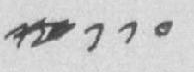༡༢༠ ༡༡༠
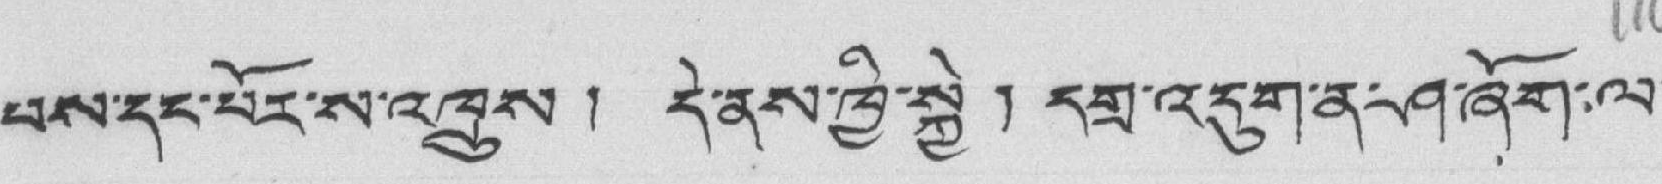པས་དང་པོར་ས་འཁྲུས ། དེ་ནས་ཁྱི་སྐྱེ ། དགྲ་འདུག་ན་ཤ་ཞོག་ལ་
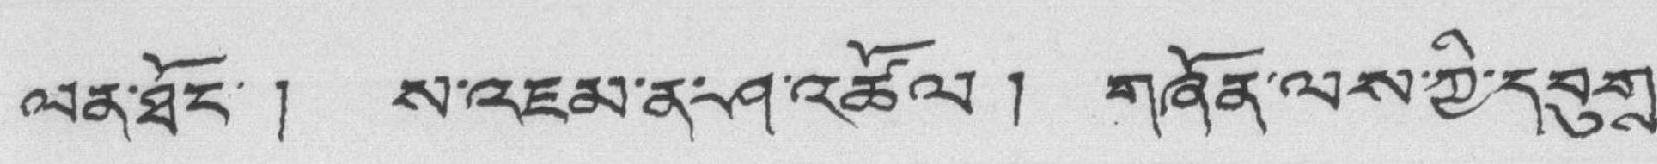ལན་ཐོང་ ། ས་འཇམ་ན་ཤ་འཚོལ ། གཞོན་ལས་ཀྱི་དབུགས་
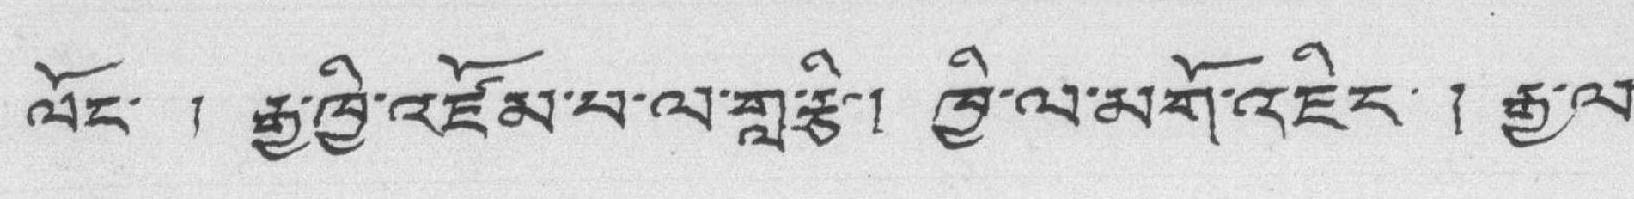ལོང་ ། རྒྱ་ཁྱི་འཛོམ་པ་ལ་གླ་རྩི། ཁྱི་ལ་མགོ་འཇིང་། རྒྱ་ལ་
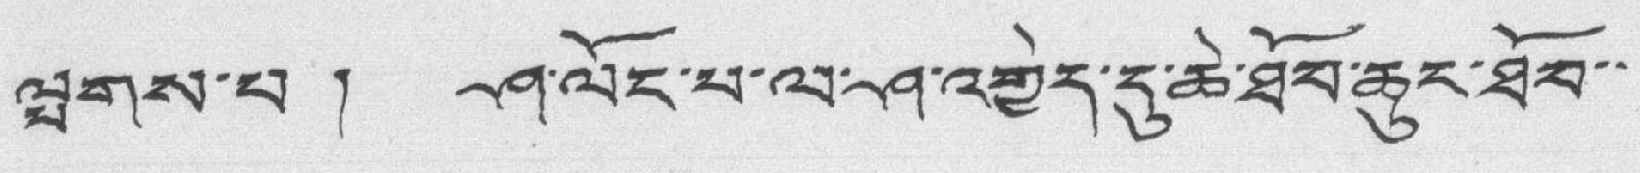ལྤགས་པ ། ཤ་ལོང་པ་ལ་ཤ་འགྱེད་དུ་ཆེ་ཐོབ་ཆུང་ཐོབ་་
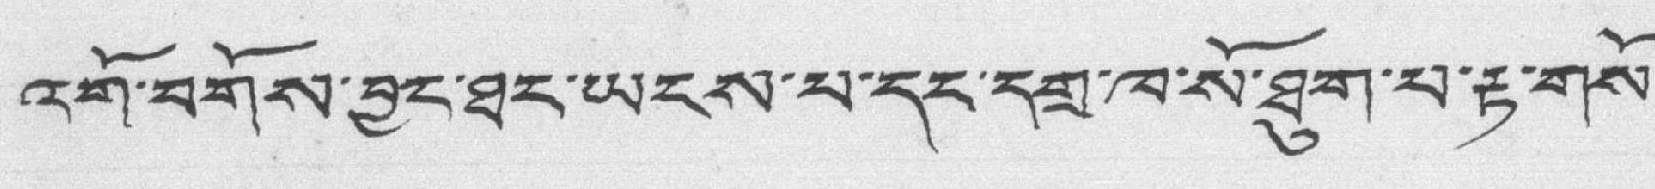འགོ་བགོས་བྱང་ཐང་ཡངས་པ་དང་དགྲ་ཁ་སོ་ཐུག་པ་རྟ་གསོ་
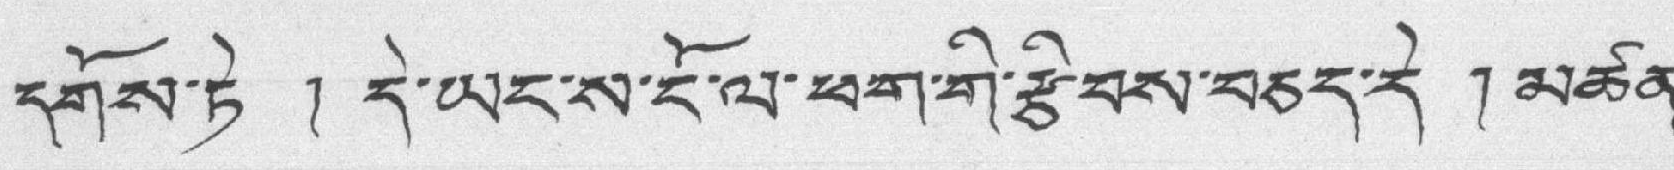དགོས་ཏེ ། དེ་ཡང་ས་ངོ་ལ་ཕག་གི་རྩིབས་བཅད་རདེ ། མཚན་
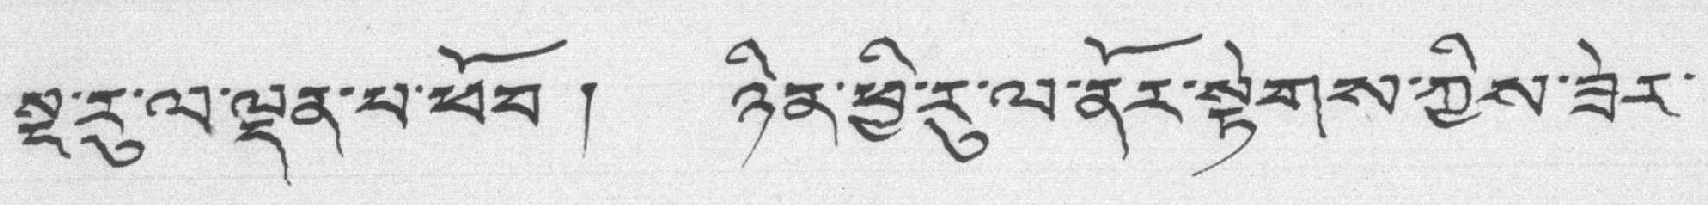སྔ་རུ་ལ་ལྡན་པ་ཕོབ ། ཉིན་ཕྱི་རུ་ལ་ནར་སྟེགས་ཀྱིས་ཟེར་
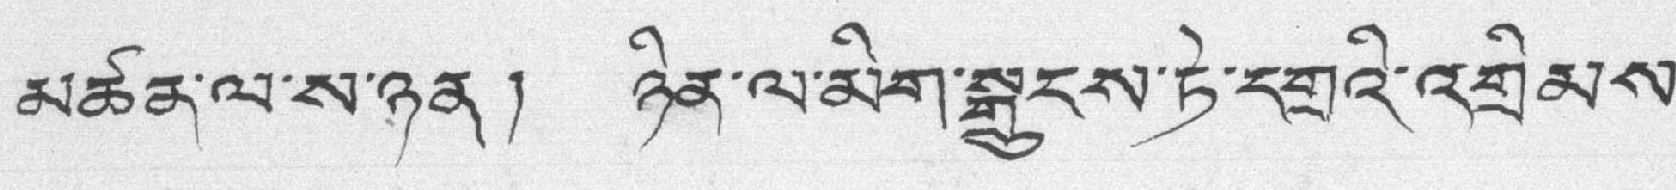མཚན་ལ་ས་ཉན། ཉིན་ལ་མིག་སྒྲུངས་ཏེ་དགྲའི་འགྲིམས་
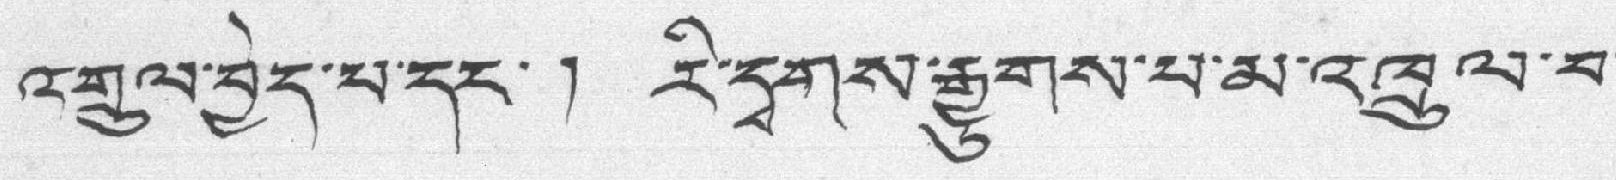འགྲུལ་བྱེད་པ་དང་། རི་དྭགས་རྒྱུགས་པ་མ་འཁྲུལ་བ་
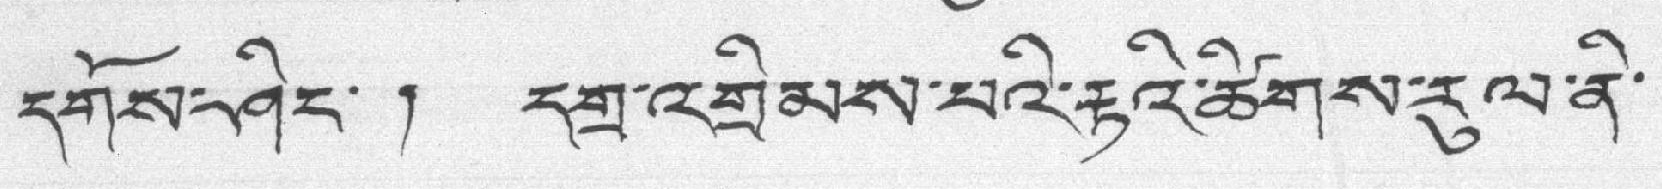དགོས་ཤིང་ ། དགྲ་འགྲིམས་པའི་རྟའི་ཚིགས་རུ་ལ་ནི་
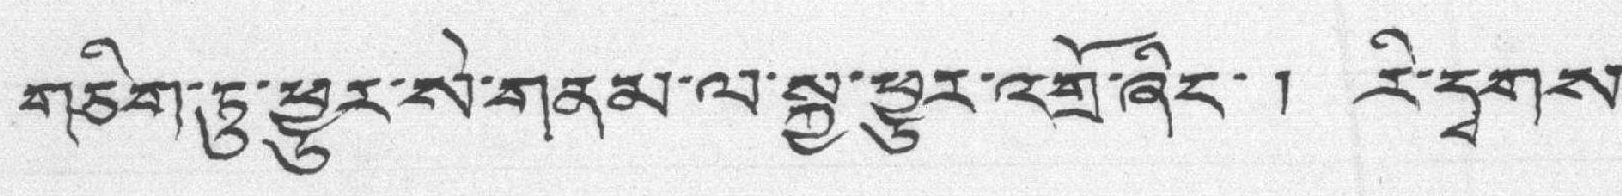གཅིག་ཏུ་ཕྱུར་སེ་གནམ་ལ་སྐྱ་ཕྱུར་འགྲོ་ཞིང་ ། རི་དྭགས་
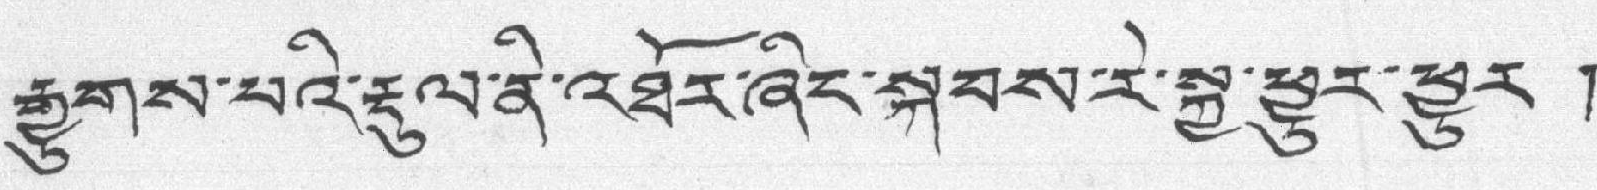རྒྱུགས་པའི་རྡུལ་ནི་འཐོར་ཞིང་སྐབས་རེ་སྐྱ་ཕྱུར་ཕྱུར །
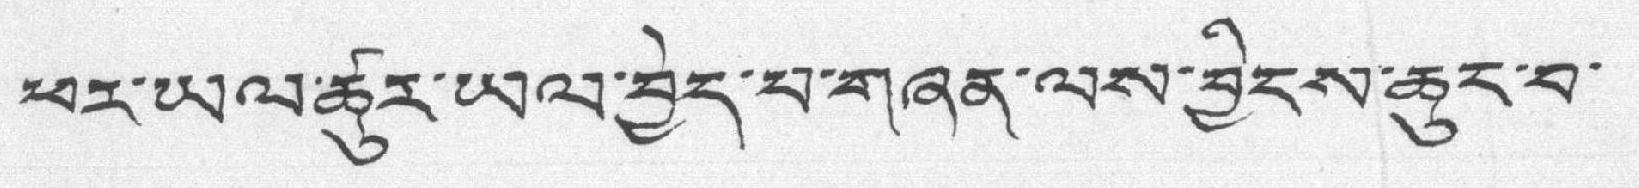ཕར་ཡལ་ཚུར་ཡལ་བྱེད་པ་གཞན་ལས་བྱིངས་ཆུང་བ་
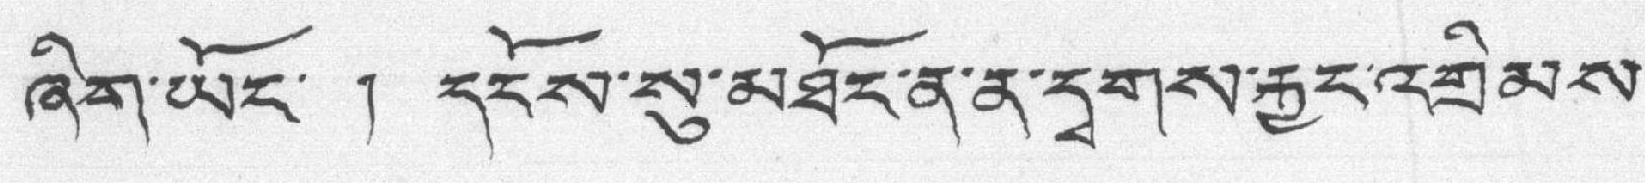ཞིག་ཡོང་ ། དངོས་སུ་མཐོང་ན་ན་དྭགས་རྐྱང་འགྲིམས་
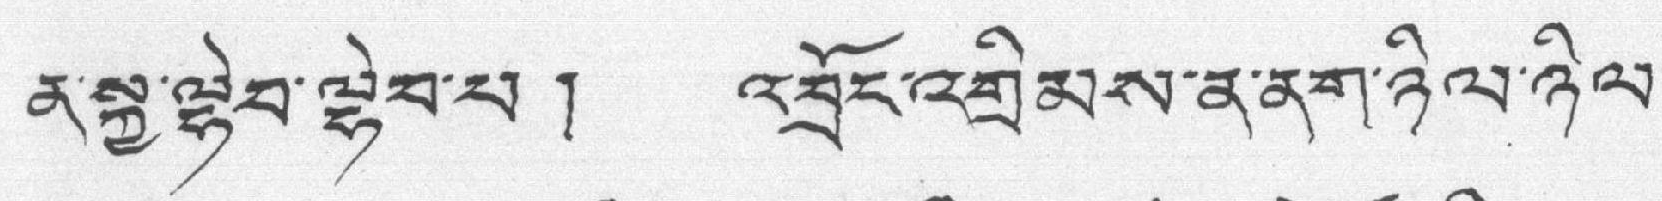ན་སྐྱ་ལྷེབ་ལྷེབ་པ ། འབྲོང་འགྲིམས་ན་ནག་ཉིལ་ཉིལ་
